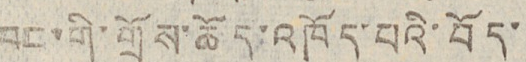ཁང་གི་གྲོས་ཆོད་འཁོད་པའི་བོད་
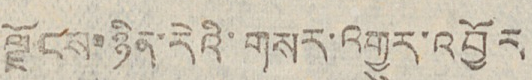ལྗོངས་ཉིན་རེའི་གསར་འགྱུར་འབྱོར
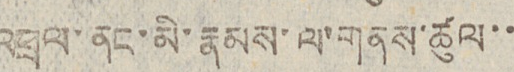འཕྲལ་ནང་མི་རྣམས་ལ་གནས་ཚུལ་་
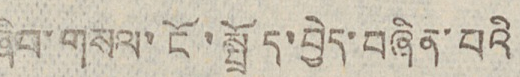ཞིབ་གསལ་ངོ་སྤྲོད་བྱེད་བཞིན་པའི
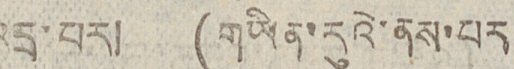འདྲ་པར། (གཡིན་རུའེ་ནས་པར
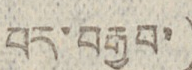པར་བརྒྱབ་)
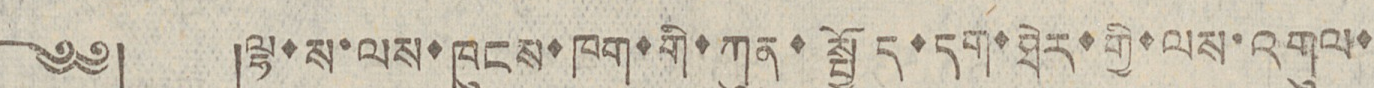༄༅། །ལྷ་ས་ལས་ཁུངས་ཁག་གི་ཀུན་སྤྱོད་དག་ཐེར་གྱི་ལས་འགུལ་
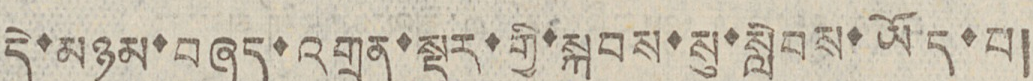དེ་མཉམ་བཞད་འགྲན་སྡུར་གྱི་སྐབས་སུ་སླེབས་ཡོད་པ།
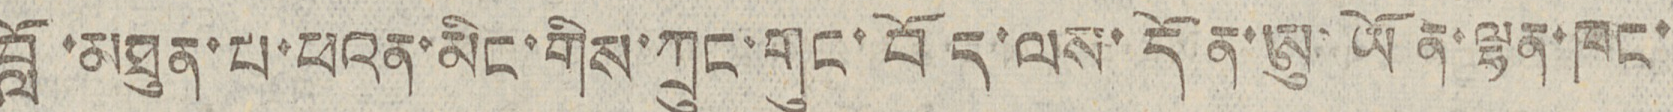བློ་མཐུན་པ་ཕའན་མིང་གིས་ཀྲུང་གུང་བོད་ལས་དོན་ཨུ་ཡོན་ལྷན་ཁང་
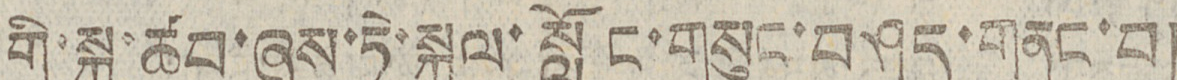གི་སྐུ་ཚབ་ཞུས་ཏེ་སྐུལ་སློང་གསུང་བཤད་གནང་བ།
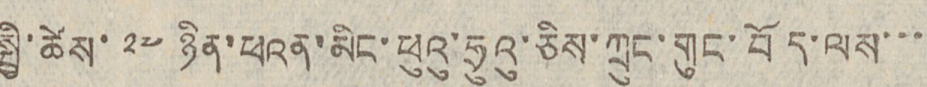སྤྱི་ཚེས་ ༢༧ ཉིན་ཕའན་མིང་ཕུའུ་ཧྲུའུ་ཅིས་ཀྲུང་གུང་བོད་ལས་་་
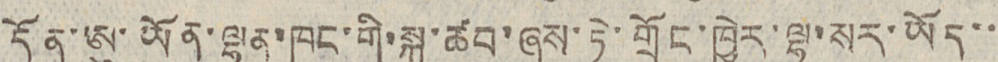དོན་ཨུ་ཡོན་ལྷན་ཁང་གི་སྐུ་ཚབ་ཞུས་ཏེ་གྲོང་ཁྱེར་ལྷ་སར་ཡོད་་
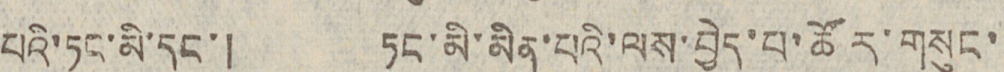པའི་ཏང་མི་དང་། ཏང་མི་མིན་པའི་ལས་བྱེད་པ་ཚོར་གསུང་
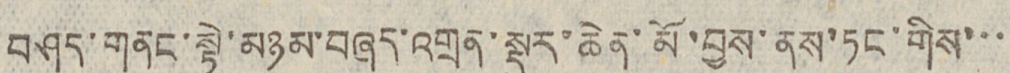བཤད་གནང་སྟེ་མཉམ་བཞད་འགྲན་སྡུར་ཆེན་མོ་བྱས་ནས་ཏང་གིས་་་
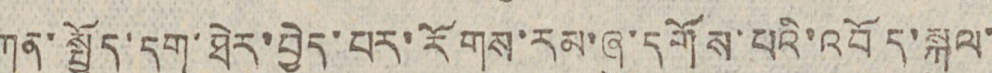ཀུན་སྤྱོད་དག་ཐེར་བྱེད་པར་རོགས་རམ་ཞུ་དགོས་པའི་འབོད་སྐུལ་
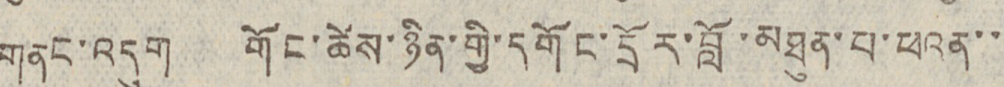གནང་འདུག གོང་ཚེས་ཉིན་གྱི་དགོང་དྲོར་བློ་མཐུན་པ་ཕའན་་
